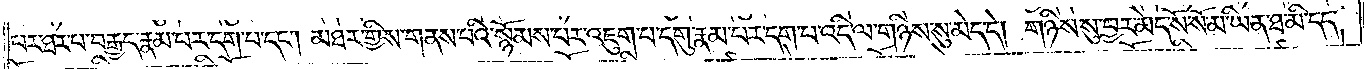པར་ཐར་པ་བརྒྱད་རྣམ་པར་དག་པ་དང༌། མཐར་གྱིས་གནས་པའི་སྙོམས་པར་འཇུག་པ་དགུ་རྣམ་པར་དག་པ་འདི་ལ་གཉིས་སུ་མེད་དེ། གཉིས་སུ་བྱར་མེད་སོ་སོ་མ་ཡིན་ཐ་མི་དད་
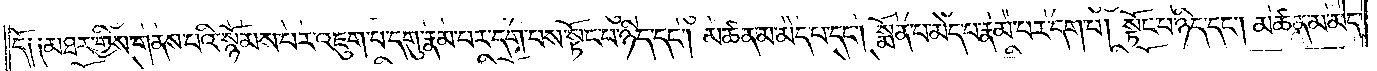དོ། །མཐར་གྱིས་གནས་པའི་སྙོམས་པར་འཇུག་པ་དགུ་རྣམ་པར་དག་པས་སྟོང་པ་ཉིད་དང༌། མཚན་མ་མེད་པ་དང༌། སྨོན་པ་མེད་པ་རྣམ་པར་དག་པ། སྟོང་པ་ཉིད་དང༌། མཚན་མ་མེད་
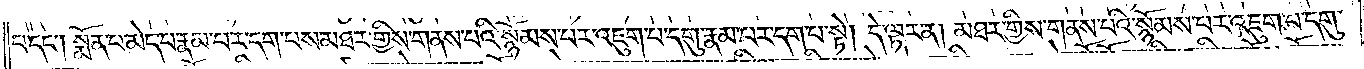པ་དང༌། སྨོན་པ་མེད་པ་རྣམ་པར་དག་པས་མཐར་གྱིས་གནས་པའི་སྙོམས་པར་འཇུག་པ་དགུ་རྣམ་པར་དག་པ་སྟེ༑ དེ་ལྟར་ན། མཐར་གྱིས་གནས་པའི་སྙོམས་པར་འཇུག་པ་དགུ་
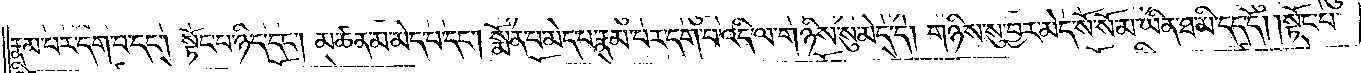རྣམ་པར་དག་པ་དང༌། སྟོང་པ་ཉིད་དང༌། མཚན་མ་མེད་པ་དང༌། སྨོན་པ་མེད་པ་རྣམ་པར་དག་པ་འདི་ལ་གཉིས་སུ་མེད་དེ། གཉིས་སུ་བྱར་མེད་སོ་སོ་མ་ཡིན་ཐ་མི་དད་དོ། །སྟོང་པ་
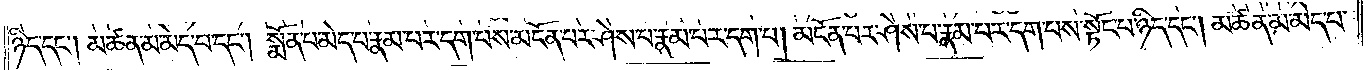ཉིད་དང༌། མཚན་མ་མེད་པ་དང༌། སྨོན་པ་མེད་པ་རྣམ་པར་དག་པས་མངོན་པར་ཤེས་པ་རྣམ་པར་དག་པ། མངོན་པར་ཤེས་པ་རྣམ་པར་དག་པས་སྟོང་པ་ཉིད་དང༌། མཚན་མ་མེད་པ་
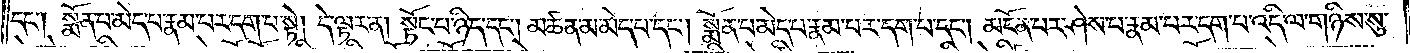དང༌། སྨོན་པ་མེད་པ་རྣམ་པར་དག་པ་སྟེ། དེ་ལྟར་ན། སྟོང་པ་ཉིད་དང༌། མཚན་མ་མེད་པ་དང༌། སྨོན་པ་མེད་པ་རྣམ་པར་དག་པ་དང༌། མངོན་པར་ཤེས་པ་རྣམ་པར་དག་པ་འདི་ལ་གཉིས་སུ་
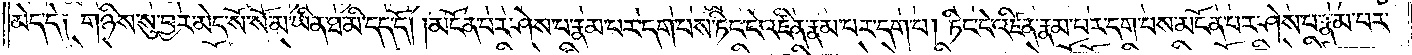མེད་དེ། གཉིས་སུ་བྱར་མེད་སོ་སོ་མ་ཡིན་ཐ་མི་དད་དོ། །མངོན་པར་ཤེས་པ་རྣམ་པར་དག་པས་ཏིང་ངེ་འཛིན་རྣམ་པར་དག་པ། ཏིང་ངེ་འཛིན་རྣམ་པར་དག་པས་མངོན་པར་ཤེས་པ་རྣམ་པར་
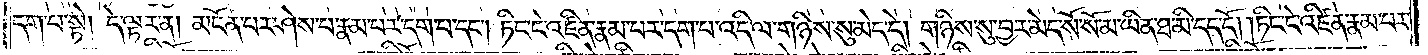དག་པ་སྟེ། དེ་ལྟར་ན། མངོན་པར་ཤེས་པ་རྣམ་པར་དག་པ་དང༌། ཏིང་ངེ་འཛིན་རྣམ་པར་དག་པ་འདི་ལ་གཉིས་སུ་མེད་དེ། གཉིས་སུ་བྱར་མེད་སོ་སོ་མ་ཡིན་ཐ་མི་དད་དོ། །ཏིང་ངེ་འཛིན་རྣམ་པར་
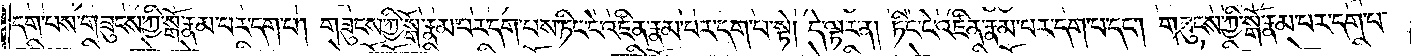དག་པས་གཟུངས་ཀྱི་སྒོ་རྣམ་པར་དག་པ། གཟུངས་ཀྱི་སྒོ་རྣམ་པར་དག་པས་ཏིང་ངེ་འཛིན་རྣམ་པར་དག་པ་སྟེ། དེ་ལྟར་ན། ཏིང་ངེ་འཛིན་རྣམ་པར་དག་པ་དང༌། གཟུངས་ཀྱི་སྒོ་རྣམ་པར་དག་པ་
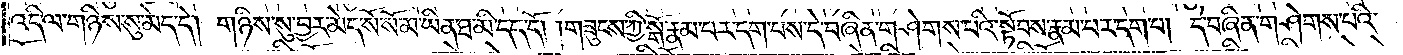འདི་ལ་གཉིས་སུ་མེད་དེ། གཉིས་སུ་བྱར་མེད་སོ་སོ་མ་ཡིན་ཐ་མི་དད་དོ། གཟུངས་ཀྱི་སྒོ་རྣམ་པར་དག་པས་དེ་བཞིན་གཤེགས་པའི་སྟོབས་རྣམ་པར་དག་པ། དེ་བཞིན་གཤེགས་པའི་
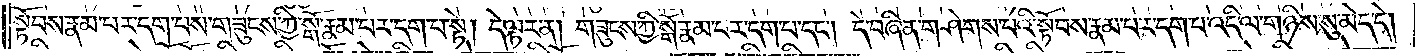སྟོབས་རྣམ་པར་དག་པས་གཟུངས་ཀྱི་སྒོ་རྣམ་པར་དག་པ་སྟེ། དེ་ལྟར་ན། གཟུངས་ཀྱི་སྒོ་རྣམ་པར་དག་པ་དང༌། དེ་བཞིན་གཤེགས་པའི་སྟོབས་རྣམ་པར་དག་པ་འདི་ལ་གཉིས་སུ་མེད་དེ།
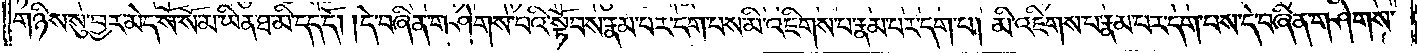གཉིས་སུ་བྱར་མེད་སོ་སོ་མ་ཡིན་ཐ་མི་དད་དོ། །དེ་བཞིན་གཤེགས་པའི་སྟོབས་རྣམ་པར་དག་པས་མི་འཇིགས་པ་རྣམ་པར་དག་པ། མི་འཇིགས་པ་རྣམ་པར་དག་པས་དེ་བཞིན་གཤེགས་
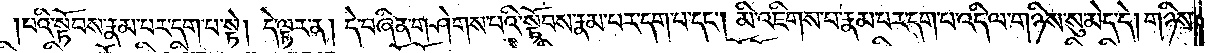པའི་སྟོབས་རྣམ་པར་དག་པ་སྟེ། དེ་ལྟར་ན། དེ་བཞིན་གཤེགས་པའི་སྟོབས་རྣམ་པར་དག་པ་དང༌། མི་འཇིགས་པ་རྣམ་པར་དག་པ་འདི་ལ་གཉིས་སུ་མེད་དེ། གཉིས་
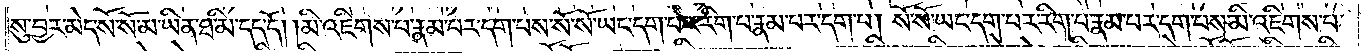སུ་བྱར་མེད་སོ་སོ་མ་ཡིན་ཐ་མི་དད་དོ། མི་འཇིགས་པ་རྣམ་པར་དག་པས་སོ་སོ་ཡང་དག་པར་རིག་པ་རྣམ་པར་དག་པ། སོ་སོ་ཡང་དག་པར་རིག་པ་རྣམ་པར་དག་པས་མི་འཇིགས་པ་
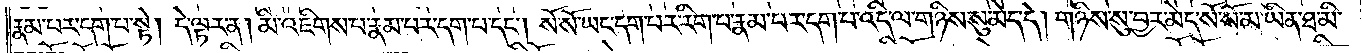རྣམ་པར་དག་པ་སྟེ། དེ་ལྟར་ན། མི་འཇིགས་པ་རྣམ་པར་དག་པ་དང༌། སོ་སོ་ཡང་དག་པར་རིག་པ་རྣམ་པར་དག་པ་འདི་ལ་གཉིས་སུ་མེད་དེ། གཉིས་སུ་བྱར་མེད་སོ་སོ་མ་ཡིན་ཐ་མི་
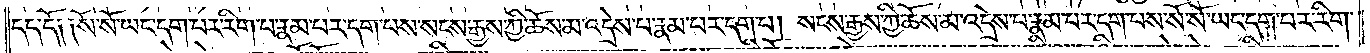དད་དོ། །སོ་སོ་ཡང་དག་པར་རིག་པ་རྣམ་པར་དག་པས་སངས་རྒྱས་ཀྱི་ཆོས་མ་འདྲེས་པ་རྣམ་པར་དག་པ། སངས་རྒྱས་ཀྱི་ཆོས་མ་འདྲེས་པ་རྣམ་པར་དག་པས་སོ་སོ་ཡང་དག་པར་རིག་
